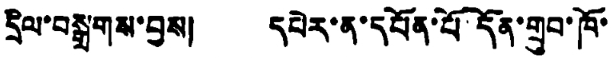དྲིལ་བསྒྲགས་བྱས། དཔེར་ན་དཔོན་པོ་དོན་གྲུབ་ཁོ་
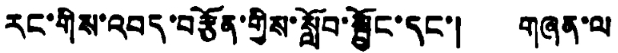རང་གིས་འབད་བརྩོན་གྱིས་སློབ་སྦྱོང་དང་། གཞན་ལ
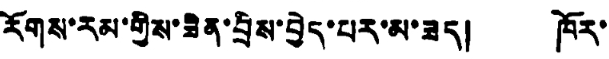རོགས་རམ་གྱིས་ཟིན་བྲིས་བྱེད་པར་མ་ཟད། ཁོར་
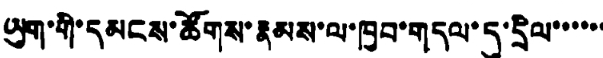ཡུག་གི་དམངས་ཚོགས་རྣམས་ལ་ཁྱབ་གདལ་དུ་དྲིལ་་་་་་
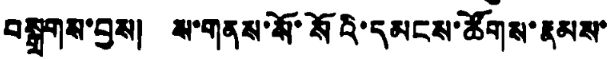བསྒྲགས་བྱས། ས་གནས་སོ་སོའི་དམངས་ཚོགས་རྣམས་
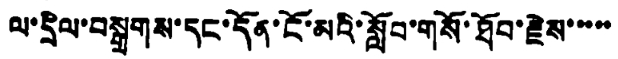ལ་དྲིལ་བསྒྲགས་དང་དོན་ངོ་མའི་སློབ་གསོ་ཐོབ་རྗེས་་་་་
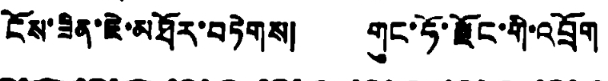ངོས་ཟིན་ཇེ་མཐོར་བཏེགས། གུང་ཧོ་རྫོང་གི་འབྲོག
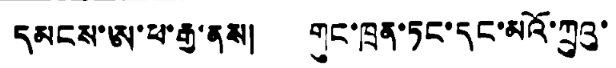དམངས་ཨ་ཕ་རྒྱ་ནས། གུང་ཁྲན་ཏང་དང་མའོ་ཀྲུའུ་
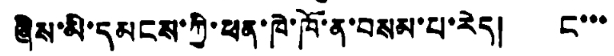ཞིས་མི་དམངས་ཀྱི་ཕན་ཁེ་ཁོ་ན་བསམ་པ་རེད། ང་་་
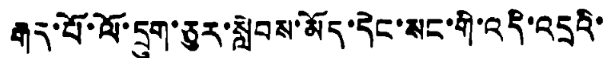རྒད་པོ་ལོ་དྲུག་ཅུར་སླེབས་མོད་དེང་སང་གི་འདི་འདྲའི་
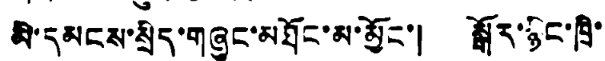མི་དམངས་སྲིད་གཞུང་མཐོང་མ་མྱོང་། སྒོར་སྙིང་ཁྲི་
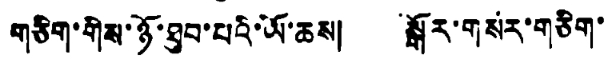གཅིག་གི་ཉོ་ཐུབ་པའི་ཡོ་ཆས། སྒོར་གསར་གཅིག་
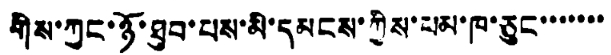གིས་ཀྱང་ཉོ་ཐུབ་པས་མི་དམངས་ཀྱིས་ཕམ་ཁ་ཅུང་་་་་་་
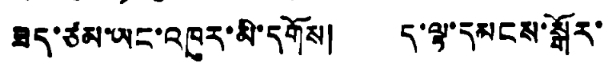ཟད་ཙམ་ཡང་འཁུར་མི་དགོས། ད་ལྟ་དམངས་སྒོར་
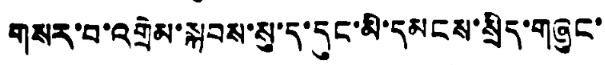གསར་བ་འགྲེམ་སྐབས་སུ་ད་དུང་མི་དམངས་སྲིད་གཞུང་
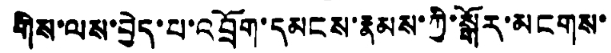གིས་ལས་བྱེད་པ་འབྲོག་དམངས་རྣམས་ཀྱི་སྒོར་མངགས་
